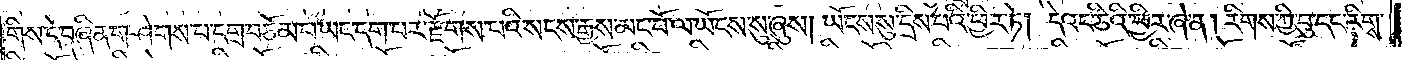གིས་དེ་བཞིན་གཤེགས་པ་དགྲ་བཅོམ་པ་ཡང་དག་པར་རྫོགས་པའི་སངས་རྒྱས་མང་པོ་ལ་ཡོངས་སུ་ཞུས། ཡོངས་སུ་དྲིས་པའི་ཕྱིར་ཏེ། དེའང་ཅིའི་ཕྱིར་ཞེ་ན། རིགས་ཀྱི་བུ་དང་རིགས་
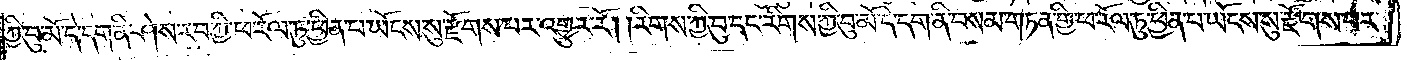ཀྱི་བུ་མོ་དེ་དག་ནི་ཤེས་རབ་ཀྱི་ཕ་རོལ་ཏུ་ཕྱིན་པ་ཡོངས་སུ་རྫོགས་པར་འགྱུར་རོ། །རིགས་ཀྱི་བུ་དང་རིགས་ཀྱི་བུ་མོ་དེ་དག་ནི་བསམ་གཏན་གྱི་ཕ་རོལ་ཏུ་ཕྱིན་པ་ཡོངས་སུ་རྫོགས་པར་
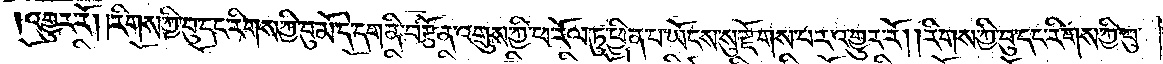འགྱུར་རོ། །རིགས་ཀྱི་བུ་དང་རིགས་ཀྱི་བུ་མོ་དེ་དག་ནི་བརྩོན་འགྲུས་ཀྱི་ཕ་རོལ་ཏུ་ཕྱིན་པ་ཡོངས་སུ་རྫོགས་པར་འགྱུར་རོ། །རིགས་ཀྱི་བུ་དང་རིགས་ཀྱི་བུ་
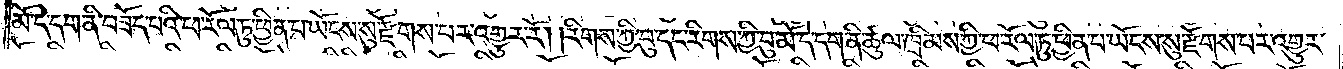མོ་དེ་དག་ནི་བཟོད་པའི་ཕ་རོལ་ཏུ་ཕྱིན་པ་ཡོངས་སུ་རྫོགས་པར་འགྱུར་རོ། །རིགས་ཀྱི་བུ་དང་རིགས་ཀྱི་བུ་མོ་དེ་དག་ནི་ཚུལ་ཁྲིམས་ཀྱི་ཕ་རོལ་ཏུ་ཕྱིན་པ་ཡོངས་སུ་རྫོགས་པར་འགྱུར་
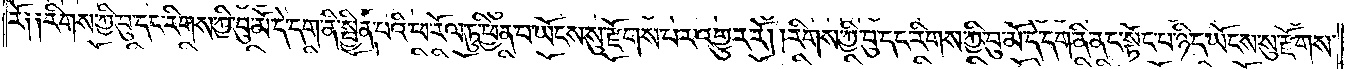རོ༑ ༑རིགས་ཀྱི་བུ་དང་རིགས་ཀྱི་བུ་མོ་དེ་དག་ནི་སྦྱིན་པའི་ཕ་རོལ་ཏུ་ཕྱིན་པ་ཡོངས་སུ་རྫོགས་པར་འགྱུར་རོ། །རིགས་ཀྱི་བུ་དང་རིགས་ཀྱི་བུ་མོ་དེ་དག་ནི་ནང་སྟོང་པ་ཉིད་ཡོངས་སུ་རྫོགས་
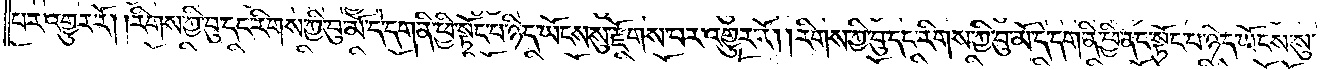པར་འགྱུར་རོ། །རིགས་ཀྱི་བུ་དང་རིགས་ཀྱི་བུ་མོ་དེ་དག་ནི་ཕྱི་སྟོང་པ་ཉིད་ཡོངས་སུ་རྫོགས་པར་འགྱུར་རོ། །རིགས་ཀྱི་བུ་དང་རིགས་ཀྱི་བུ་མོ་དེ་དག་ནི་ཕྱི་ནང་སྟོང་པ་ཉིད་ཡོངས་སུ་
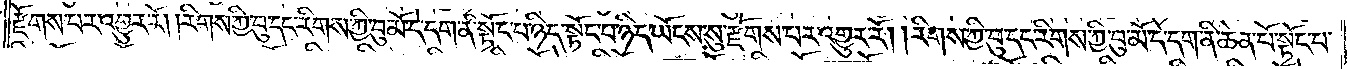རྫོགས་པར་འགྱུར་རོ། །རིགས་ཀྱི་བུ་དང་རིགས་ཀྱི་བུ་མོ་དེ་དག་ནི་སྟོང་པ་ཉིད་སྟོང་པ་ཉིད་ཡོངས་སུ་རྫོགས་པར་འགྱུར་རོ། །རིགས་ཀྱི་བུ་དང་རིགས་ཀྱི་བུ་མོ་དེ་དག་ནི་ཆེན་པོ་སྟོང་པ་
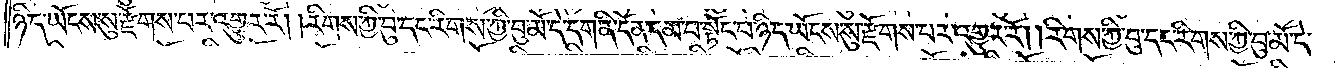ཉིད་ཡོངས་སུ་རྫོགས་པར་འགྱུར་རོ། །རིགས་ཀྱི་བུ་དང་རིགས་ཀྱི་བུ་མོ་དེ་དག་ནི་དོན་དམ་པ་སྟོང་པ་ཉིད་ཡོངས་སུ་རྫོགས་པར་འགྱུར་རོ། །རིགས་ཀྱི་བུ་དང་རིགས་ཀྱི་བུ་མོ་དེ་
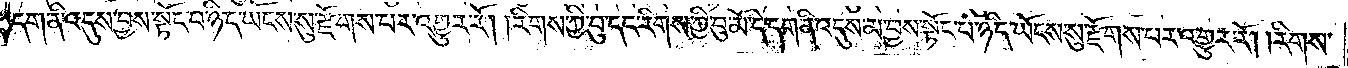དག་ནི་འདུས་བྱས་སྟོང་པ་ཉིད་ཡོངས་སུ་རྫོགས་པར་འགྱུར་རོ། །རིགས་ཀྱི་བུ་དང་རིགས་ཀྱི་བུ་མོ་དེ་དག་ནི་འདུས་མ་བྱས་སྟོང་པ་ཉིད་ཡོངས་སུ་རྫོགས་པར་འགྱུར་རོ། །རིགས་
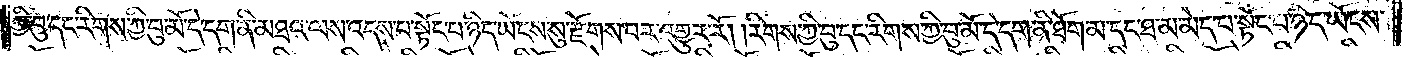ཀྱི་བུ་དང་རིགས་ཀྱི་བུ་མོ་དེ་དག་ནི་མཐའ་ལས་འདས་པ་སྟོང་པ་ཉིད་ཡོངས་སུ་རྫོགས་པར་འགྱུར་རོ། །རིགས་ཀྱི་བུ་དང་རིགས་ཀྱི་བུ་མོ་དེ་དག་ནི་ཐོག་མ་དང་ཐ་མ་མེད་པ་སྟོང་པ་ཉིད་ཡོངས་
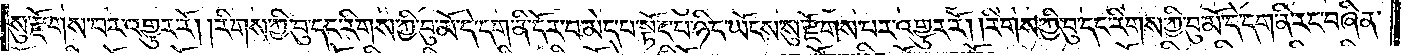སུ་རྫོགས་པར་འགྱུར་རོ། །རིགས་ཀྱི་བུ་དང་རིགས་ཀྱི་བུ་མོ་དེ་དག་ནི་དོར་བ་མེད་པ་སྟོང་པ་ཉིད་ཡོངས་སུ་རྫོགས་པར་འགྱུར་རོ། །རིགས་ཀྱི་བུ་དང་རིགས་ཀྱི་བུ་མོ་དེ་དག་ནི་རང་བཞིན་
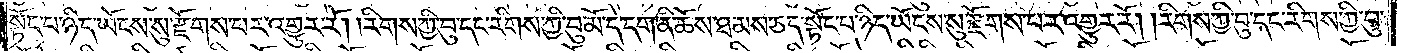སྟོང་པ་ཉིད་ཡོངས་སུ་རྫོགས་པར་འགྱུར་རོ། །རིགས་ཀྱི་བུ་དང་རིགས་ཀྱི་བུ་མོ་དེ་དག་ནི་ཆོས་ཐམས་ཅད་སྟོང་པ་ཉིད་ཡོངས་སུ་རྫོགས་པར་འགྱུར་རོ། །རིགས་ཀྱི་བུ་དང་རིགས་ཀྱི་བུ་
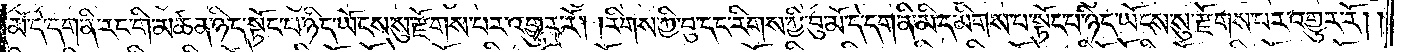མོ་དེ་དག་ནི་རང་གི་མཚན་ཉིད་སྟོང་པ་ཉིད་ཡོངས་སུ་རྫོགས་པར་འགྱུར་རོ། །རིགས་ཀྱི་བུ་དང་རིགས་ཀྱི་བུ་མོ་དེ་དག་ནི་མི་དམིགས་པ་སྟོང་པ་ཉིད་ཡོངས་སུ་རྫོགས་པར་འགྱུར་རོ། །
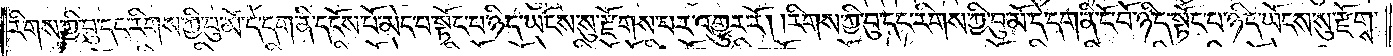རིགས་ཀྱི་བུ་དང་རིགས་ཀྱི་བུ་མོ་དེ་དག་ནི་དངོས་པོ་མེད་པ་སྟོང་པ་ཉིད་ཡོངས་སུ་རྫོགས་པར་འགྱུར་རོ། །རིགས་ཀྱི་བུ་དང་རིགས་ཀྱི་བུ་མོ་དེ་དག་ནི་ངོ་བོ་ཉིད་སྟོང་པ་ཉིད་ཡོངས་སུ་རྫོགས་
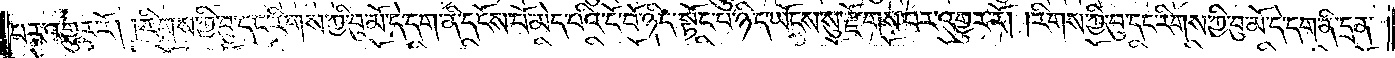པར་འགྱུར་རོ། །རིགས་ཀྱི་བུ་དང་རིགས་ཀྱི་བུ་མོ་དེ་དག་ནི་དངོས་པོ་མེད་པའི་ངོ་བོ་ཉིད་སྟོང་པ་ཉིད་ཡོངས་སུ་རྫོགས་པར་འགྱུར་རོ། །རིགས་ཀྱི་བུ་དང་རིགས་ཀྱི་བུ་མོ་དེ་དག་ནི་དྲན་
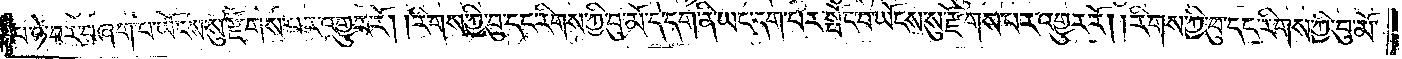པ་ཉེ་བར་བཞག་པ་ཡོངས་སུ་རྫོགས་པར་འགྱུར་རོ། །རིགས་ཀྱི་བུ་དང་རིགས་ཀྱི་བུ་མོ་དེ་དག་ནི་ཡང་དག་པར་སྤོང་བ་ཡོངས་སུ་རྫོགས་པར་འགྱུར་རོ། །རིགས་ཀྱི་བུ་དང་རིགས་ཀྱི་བུ་མོ་
